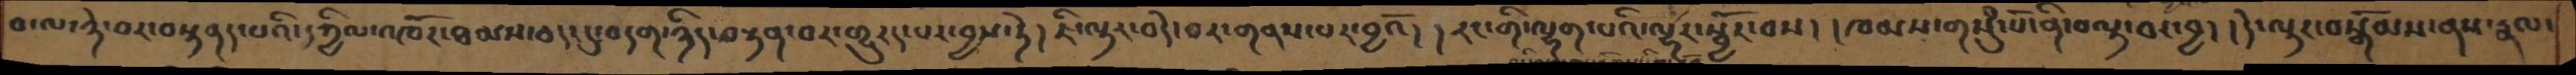བ་ལ་ཉེ་བར་བསྟནད་པའི་དཀྱིལ་འཁོར་ཐམས་ཅད་དུ་བདག་ཉིད་བསྟན་བར་གྱུརད་པར་བྱས་ཏེ། ཇི་ལྟར་བདེ་བར་གནས་པར་བྱའོ། །རང་གི་ལྷག་པའི་ལྷར་སྦྱོར་བས། །ཁམས་གསུཾ་པོ་ནི་བལྟ་བར་བྱ། །དེ་ལྟར་བསྒོམས་ནས་རྣལ་
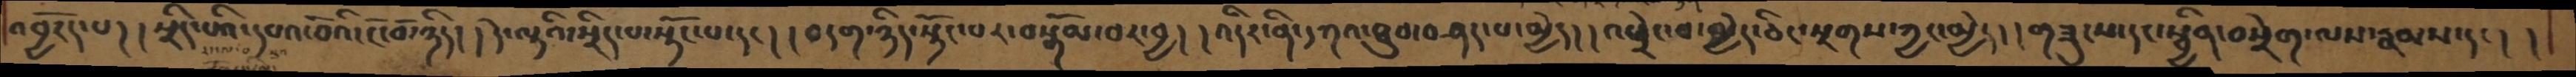འབྱོརད་པ། །སྲིད་པའི་དཔའ་བོའི་ངོ་བོ་ཉིད། །དེ་ལྟའི་སྲིད་པ་སྟོང་པ་དང། །བདག་ཉིད་སྟོང་པར་བསྒོམ་བར་བྱ། །འདིར་ནི་དཀའ་ཐུབ་བཤད་པ་མྱེད། །འཕྲེང་བ་མྱེད་ཅིང་སྔགས་ཀྱང་མྱེད། །གཟུངས་དང་སྦྱིན་བསྲེག་ལས་རྣམས་དང། །
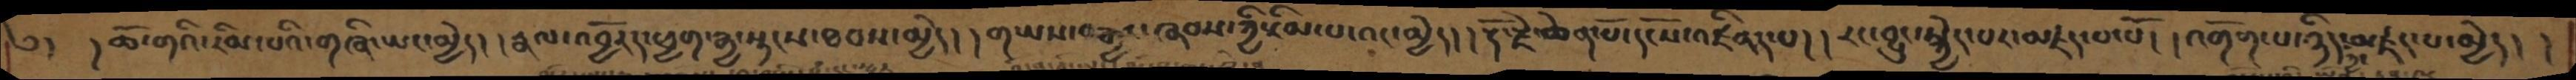༄། །ཆོ་གའི་རིམ་པའི་གཞི་ཡང་མྱེད། །རྣལ་འབྱོརད་ཕྱག་རྒྱ་སྟངས་ཐབས་མྱེད། །གཡས་བརྐྱང་ཞབས་ཀྱི་རིམ་པ་འང་མྱེད། །རྡོ་རྗེ་ཆེན་པོ་དངོས་འཛིནད་པ། །རང་བྱུང་སྐྱེད་པར་མཛད་པ་པོ། །འགོག་པ་ཉིད་ཀྱང་མཛད་པ་མྱེད། །
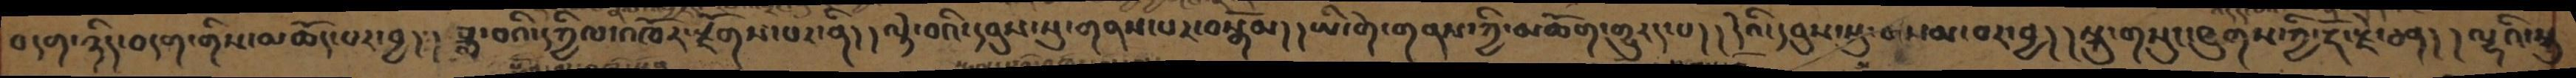བདག་ཉིད་བདག་གིས་མཆོད་པར་བྱ།། ཟླ་བའི་དཀྱིལ་འཁོར་རྫོགས་པར་ནི་།། ལྟེ་བའི་དབུས་སུ་གནས་པར་བསྒོམ།། ཡི་གེ་གནས་ཀྱི་མཆོག་གྱུརད་པ།། དེའི་དབུས་སུ་བསམ་བར་བྱ།། སྐུ་གསུང་ཐུགས་ཀྱི་རྡོ་རྗེ་ཅན།། ལྷའི་སྐུ
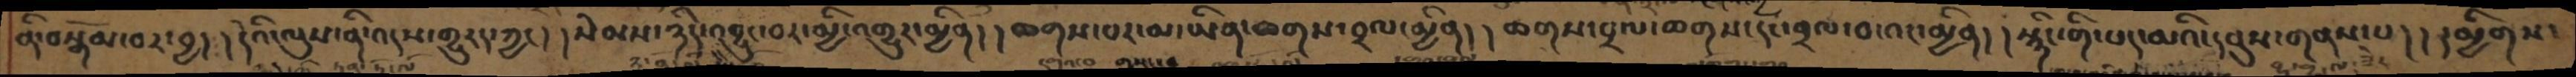ནི་བསྒོམ་པར་བྱ། །དེའི་ལུས་ནི་འདས་གྱུརད་ཀྱང། །སེམས་ཉིད་འབྱུང་བར་མྱི་འགྱུར་མྱིན། །ཆགས་པར་མ་ཡིན་ཆགས་བྲལ་མྱིན། །ཆགས་བྲལ་ཆགས་དང་བྲལ་བ་འང་མྱིན། །སྙིང་གི་པད་མའི་དབུས་གནས་པ། །དམྱིགས་
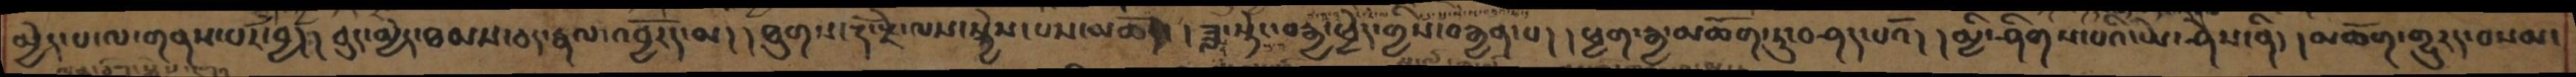མྱེད་པ་ལ་གནས་པར་བྱ། །བུད་མྱེད་ཐམས་ཅད་རྣལ་འབྱོརད་མ། །ཐུགས་རྡོ་རྗེ་ལས་སྐྱེས་པས་མཆོད། །ཟླ་སྟེང་བརྒྱ་ཕྱེད་གྱིས་བརྒྱན་པ། །ཕྱག་རྒྱ་མཆོག་ཏུ་བཤད་པའོ། །མྱི་ཤིགས་པའི་ཡེ་ཤེས་ནི། །མཆོག་གྱུརད་བསམ་
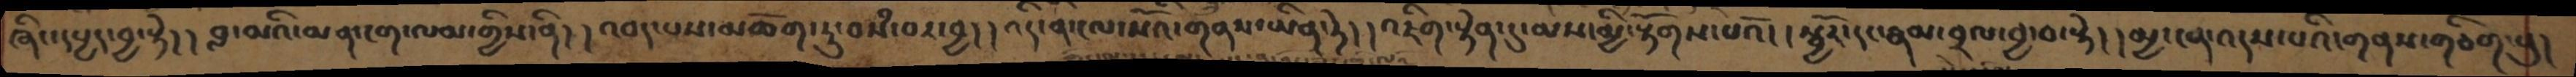ཞིང་དཔྱད་བྱ་སྟེ། །བླ་མའི་མན་ངག་ལམ་གྱིས་ནི། །འབད་པས་མཆོག་ཏུ་བསཾ་བར་བྱ། །འདི་ནི་ངལ་སོའི་གནས་ཡིན་ཏེ། །འཇིག་རྟེན་དུ་མས་མྱི་རྟོགས་པའོ། །སྦྱོར་དང་རྣམ་བྲལ་བྱ་བ་སྟེ། །མྱ་ངན་འདས་པའི་གནས་གཅིག་པུ།
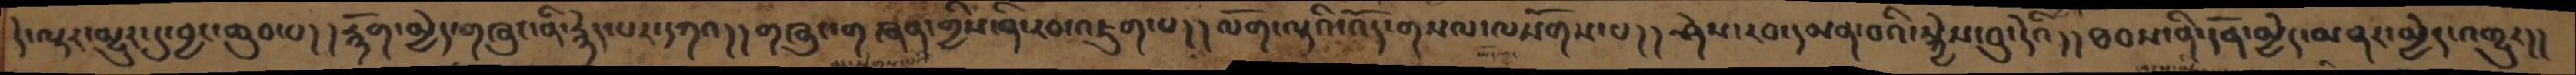དེ་ལྟར་མྱུར་དུ་བྱང་ཆུབ་པ། །རྙོག་མྱེད་གཞུང་ནི་རྙེད་པར་དཀའ། །གཞུང་གཞན་གྱིས་ནི་རབ་འཇུག་པ། །ལོག་ལྟའི་འོད་གསལ་ལསོགས་པ། །ཤེས་རབ་དམན་པའི་སྐྱེས་བུ་དེའི། །ཐབས་ནི་དོན་མྱེད་མནར་མྱེད་འགྱུར།།
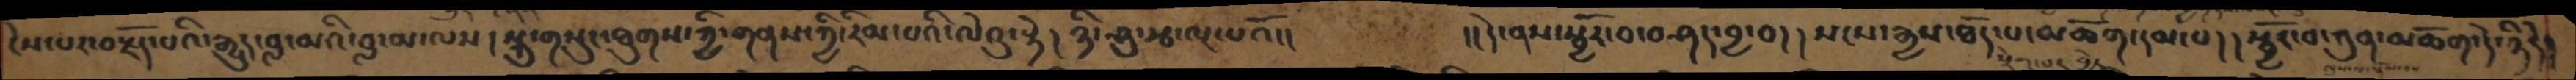ངེས་པར་བརྗོད་པའི་རྒྱུད་བླ་མའི་བླ་མ་ལས། སྐུ་གསུང་ཐུགས་ཀྱི་གནས་ཀྱི་རིམ་པའི་ལེའུ་སྟེ། ཉི་ཤུ་རྩ་ལྔ་པའོ།།    །།དེ་ནས་སྦྱོར་བ་བཤད་བྱ་བ།། སངས་རྒྱས་ཐོད་པ་མཆོག་དམ་པ།། སྦྱོར་བ་ཀུན་མཆོག་དེ་ཉིདེ།
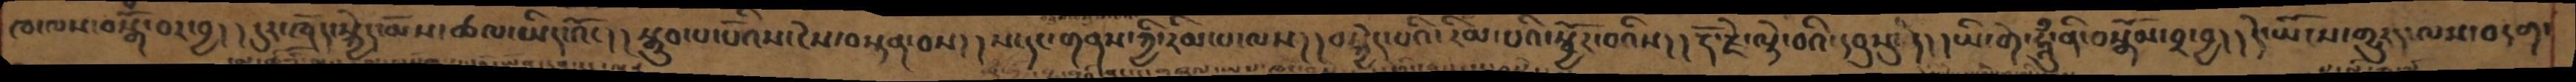ཁ་ལས་བསྒོཾ་བར་བྱ། །དུར་ཁྲོད་སྐྱེད་མོས་ཚལ་ཡིད་འོང།།སྒྲུབ་པ་པོའིས་ངེས་བསྟན་བས།།ས་དང་གནས་ཀྱི་རིམ་པ་ལས།།བསྐྱེད་པའི་རིམ་པའི་སྦྱོར་བའིས།།རྡོ་རྗེ་ལྟེ་བའི་དབུསུ་དེ།།ཡི་གེ་ཧཱུྃ་ནི་བསྒོམ་བར་བྱ།།དེ་ཡོངས་གྱུརད་ལས་བདག་
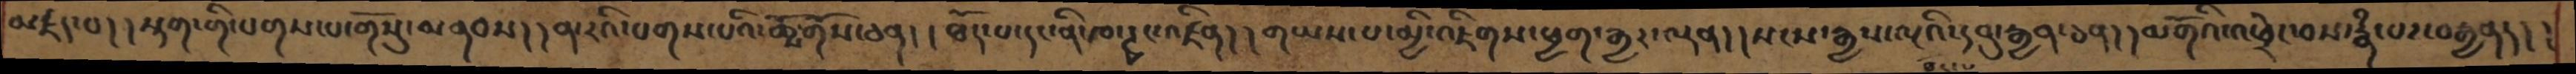མཛད་པ།།སྟག་གི་པགས་པ་གོསུ་མནབས།།ན་རའི་པགས་པའི་ཆོས་གོས་ཅན།།ཐོད་པ་དང་ནི་ཁ་ཏྭང་འཛིན།།གཡས་པ་མྱི་འཇིགས་ཕྱག་རྒྱར་ལྡན།།སངས་རྒྱས་ལྔའི་དབུ་རྒྱན་ཅན།།མགོའི་འཕྲེང་བས་རྣཾ་པར་བརྒྱནད།།
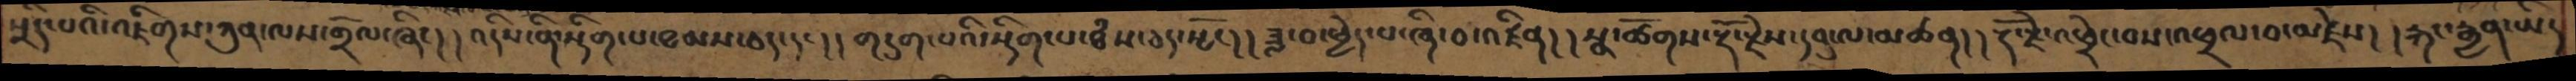སྲིད་པའི་འཇིགས་ཀུན་ལས་གྲོལ་ཞིང། །འདིས་ནི་སྡིག་པ་ཐམས་ཅད་དང། །གདུག་པའི་སྡིག་པ་ཐཾས་ཅད་སྤོང། །ཟླ་བ་ཕྱེད་པ་ཞི་བ་འཛིན། །སྣ་ཚོགས་རྡོ་རྗེས་དབུ་ལ་མཚན། །རྡོ་རྗེ་འཕྲེང་བས་འཕྲལ་བ་མཛེས། །རྐང་རྒྱན་ཡིད
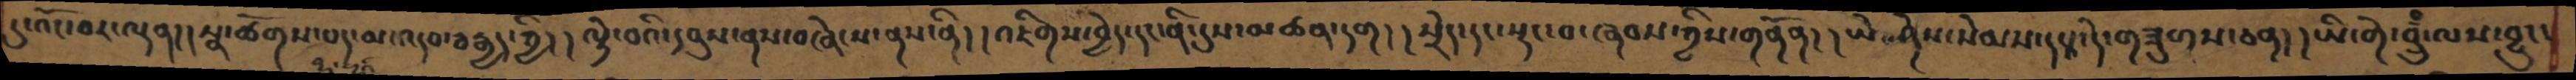དུ་འོང་བར་ལྡན།། སྣ་ཚོགས་པད་མ་འདབ་བརྒྱད་ཀྱི། །ལྟེ་བའི་དབུས་ནས་བཞེངས་ནས་ནི། །འཇིགས་བྱེད་དང་ནི་དུས་མཚན་དག། །སྲེད་དང་སྡང་བ་ཞབས་ཀྱིས་གནོན། །ཡེ་ཤེས་སེམས་དཔའ་དེ་གཟུགས་ཅན། །ཡི་གེ་བྲུྃ་ལས་བྱུང་
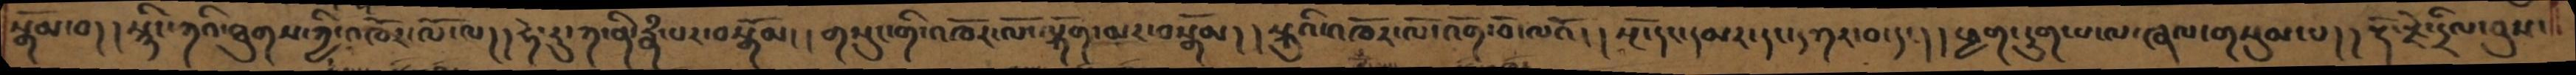སྒོམ་བ།།སྙིང་ཀའི་ཐུགས་ཀྱི་འཁོར་ལོ་ལ།།ཧེ་རུ་ཀ་ནི་རྣཾ་པར་བསྒོམ།།གསུང་གི་འཁོར་ལོ་ལྐོག་མར་བསྒོམ།།སྐུའི་འཁོར་ལོ་འགོ་བོ་ལའོ། །སྔོ་དང་དམར་དང་དཀར་བ་དང།།ཕྱག་དྲུག་པ་ལ་ཞལ་གསུམ་པ།།རྡོ་རྗེ་དྲིལ་བུས་
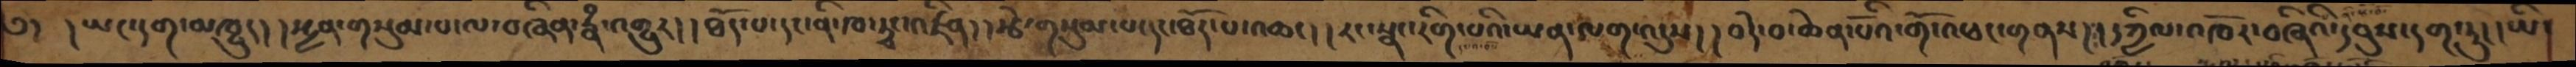༄། །ཡང་དག་མཁྱུད། །སྤྱན་གསུམ་པ་ལ་བཞིན་རྣཾ་འགྱུར།།ཐོད་པ་དང་ནི་ཁ་ཏྭང་འཛིན།།རྩེ་གསུམ་པ་དང་ཐོད་པ་འཆང།།རང་སྣང་རིག་པའི་ཡན་ལག་འདུས།།བདེ་བ་ཆེན་པོའི་གོ་འཕང་གནས།།དཀྱིལ་འཁོར་བཞིའི་དབུས་དག་ཏུ།།ཡི
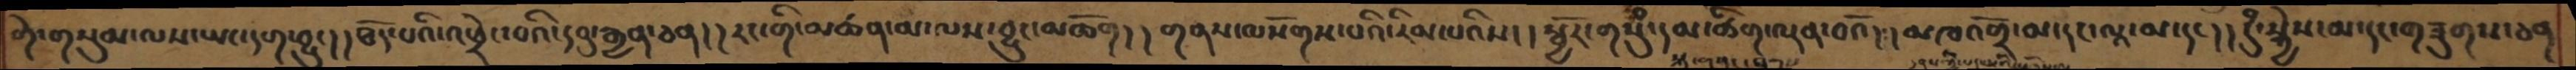གེ་གསུམ་ལས་ཡང་དག་བྱུང།།ཐོད་པའི་འཕྲེང་བའི་དབུ་རྒྱན་ཅན།།རང་གིམཚན་མ་ལས་བྱུང་མཆོག།།གནས་ལསོགས་པའི་རིམ་པའིས།།སྦྱོར་གསུཾ་དམ་ཚིག་ལྡན་བའོ།།མཁའགྲོ་མ་དང་ལཱ་མ་དང།།དུཾ་སྐྱེས་མ་དང་གཟུགས་ཅན
